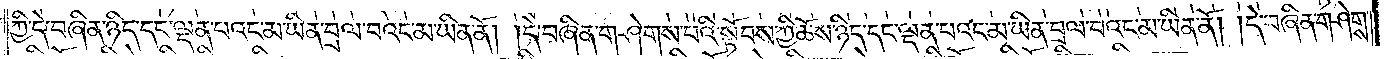ཀྱི་དེ་བཞིན་ཉིད་དང་ལྡན་པའང་མ་ཡིན་བྲལ་བའང་མ་ཡིན་ནོ། །དེ་བཞིན་གཤེགས་པའི་སྟོབས་ཀྱི་ཆོས་ཉིད་དང་ལྡན་པའང་མ་ཡིན་བྲལ་བའང་མ་ཡིན་ནོ། །དེ་བཞིན་གཤེགས་
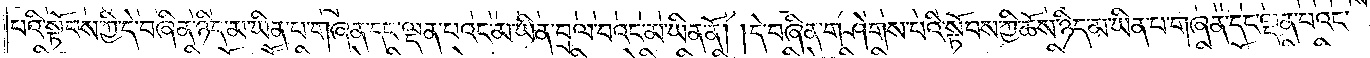པའི་སྟོབས་ཀྱི་དེ་བཞིན་ཉིད་མ་ཡིན་པ་གཞན་དང་ལྡན་པའང་མ་ཡིན་བྲལ་བའང་མ་ཡིན་ནོ། །དེ་བཞིན་གཤེགས་པའི་སྟོབས་ཀྱི་ཆོས་ཉིད་མ་ཡིན་པ་གཞན་དང་ལྡན་པའང་
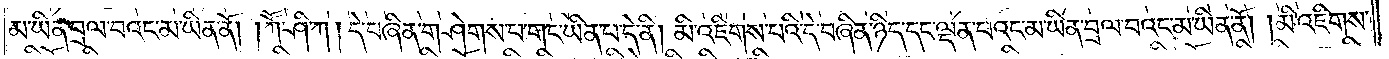མ་ཡིན་བྲལ་བའང་མ་ཡིན་ནོ། །ཀཽ་ཤི་ཀ། དེ་བཞིན་གཤེགས་པ་གང་ཡིན་པ་དེ་ནི། མི་འཇིགས་པའི་དེ་བཞིན་ཉིད་དང་ལྡན་པའང་མ་ཡིན་བྲལ་བའང་མ་ཡིན་ནོ། །མི་འཇིགས་
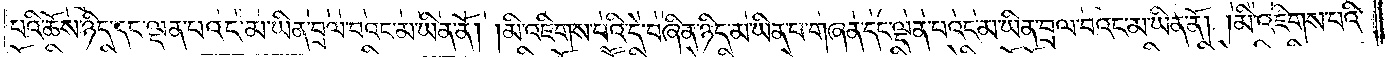པའི་ཆོས་ཉིད་དང་ལྡན་པའང་མ་ཡིན་བྲལ་བའང་མ་ཡིན་ནོ། །མི་འཇིགས་པའི་དེ་བཞིན་ཉིད་མ་ཡིན་པ་གཞན་དང་ལྡན་པའང་མ་ཡིན་བྲལ་བའང་མ་ཡིན་ནོ། །མི་འཇིགས་པའི་
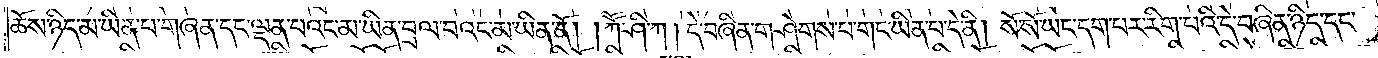ཆོས་ཉིད་མ་ཡིན་པ་གཞན་དང་ལྡན་པའང་མ་ཡིན་བྲལ་བའང་མ་ཡིན་ནོ། །ཀཽ་ཤི་ཀ། དེ་བཞིན་གཤེགས་པ་གང་ཡིན་པ་དེ་ནི། སོ་སོ་ཡང་དག་པར་རིག་པའི་དེ་བཞིན་ཉིད་དང་
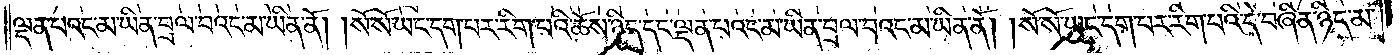ལྡན་པའང་མ་ཡིན་བྲལ་བའང་མ་ཡིན་ནོ། །སོ་སོ་ཡང་དག་པར་རིག་པའི་ཆོས་ཉིད་དང་ལྡན་པའང་མ་ཡིན་བྲལ་བའང་མ་ཡིན་ནོ། །སོ་སོ་ཡང་དག་པར་རིག་པའི་དེ་བཞིན་ཉིད་མ་
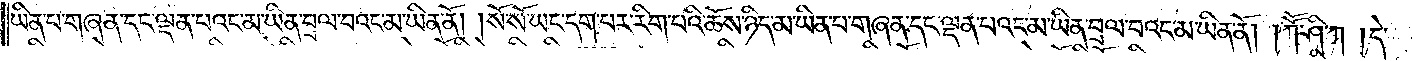ཡིན་པ་གཞན་དང་ལྡན་པའང་མ་ཡིན་བྲལ་བའང་མ་ཡིན་ནོ། །སོ་སོ་ཡང་དག་པར་རིག་པའི་ཆོས་ཉིད་མ་ཡིན་པ་གཞན་དང་ལྡན་པའང་མ་ཡིན་བྲལ་བའང་མ་ཡིན་ནོ། །ཀཽ་ཤི་ཀ །དེ་
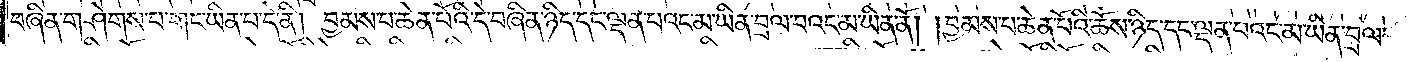བཞིན་གཤེགས་པ་གང་ཡིན་པ་དེ་ནི། བྱམས་པ་ཆེན་པོའི་དེ་བཞིན་ཉིད་དང་ལྡན་པའང་མ་ཡིན་བྲལ་བའང་མ་ཡིན་ནོ། །བྱམས་པ་ཆེན་པོའི་ཆོས་ཉིད་དང་ལྡན་པའང་མ་ཡིན་བྲལ་
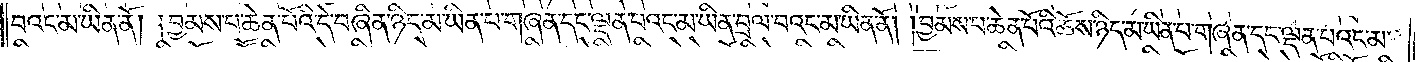བའང་མ་ཡིན་ནོ། །བྱམས་པ་ཆེན་པོ་འདི་བཞིན་ཉིད་མ་ཡིན་པ་གཞན་དང་ལྡན་པའང་མ་ཡིན་བྲལ་བའང་མ་ཡིན་ནོ། །བྱམས་པ་ཆེན་པོའི་ཆོས་ཉིད་མ་ཡིན་པ་གཞན་དང་ལྡན་པའང་མ་
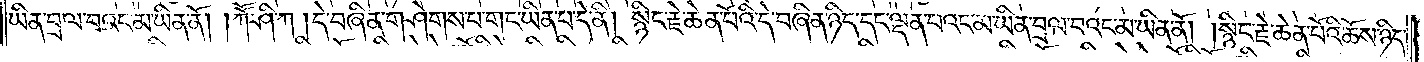ཡིན་བྲལ་བའང་མ་ཡིན་ནོ། །ཀཽ་ཤི་ཀ །དེ་བཞིན་གཤེགས་པ་གང་ཡིན་པ་དེ་ནི། སྙིང་རྗེ་ཆེན་པོའི་དེ་བཞིན་ཉིད་དང་ལྡན་པའང་མ་ཡིན་བྲལ་བའང་མ་ཡིན་ནོ། །སྙིང་རྗེ་ཆེན་པོའི་ཆོས་ཉིད་
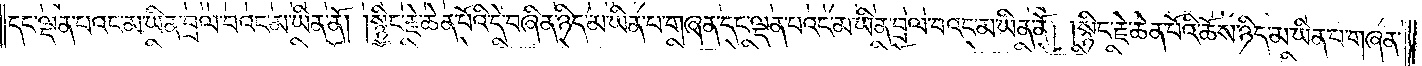དང་ལྡན་པའང་མ་ཡིན་བྲལ་བའང་མ་ཡིན་ནོ། །སྙིང་རྗེ་ཆེན་པོའི་དེ་བཞིན་ཉིད་མ་ཡིན་པ་གཞན་དང་ལྡན་པའང་མ་ཡིན་བྲལ་བའང་མ་ཡིན་ནོ། །སྙིང་རྗེ་ཆེན་པོའི་ཆོས་ཉིད་མ་ཡིན་པ་གཞན་
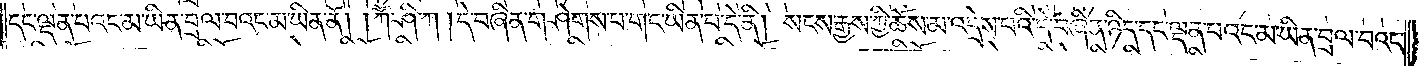དང་ལྡན་པའང་མ་ཡིན་བྲལ་བའང་མ་ཡིན་ནོ། །ཀཽ་ཤི་ཀ །དེ་བཞིན་གཤེགས་པ་གང་ཡིན་པ་དེ་ནི། སངས་རྒྱས་ཀྱི་ཆོས་མ་འདྲེས་པའི་དེ་བཞིན་ཉིད་དང་ལྡན་པའང་མ་ཡིན་བྲལ་བའང་
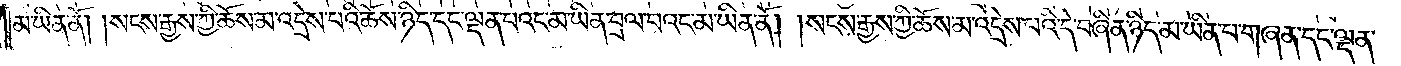མ་ཡིན་ནོ། །སངས་རྒྱས་ཀྱི་ཆོས་མ་འདྲེས་པའི་ཆོས་ཉིད་དང་ལྡན་པའང་མ་ཡིན་བྲལ་བའང་མ་ཡིན་ནོ། །སངས་རྒྱས་ཀྱི་ཆོས་མ་འདྲེས་པའི་དེ་བཞིན་ཉིད་མ་ཡིན་པ་གཞན་དང་ལྡན་
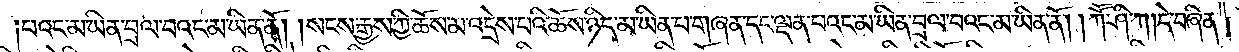པའང་མ་ཡིན་བྲལ་བའང་མ་ཡིན་ནོ། །སངས་རྒྱས་ཀྱི་ཆོས་མ་འདྲེས་པའི་ཆོས་ཉིད་མ་ཡིན་པ་གཞན་དང་ལྡན་པའང་མ་ཡིན་བྲལ་བའང་མ་ཡིན་ནོ། །ཀཽ་ཤི་ཀ །དེ་བཞིན་
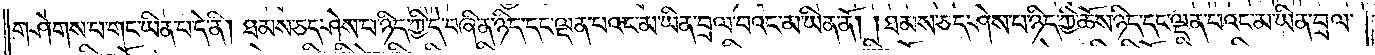གཤེགས་པ་གང་ཡིན་པ་དེ་ནི། ཐམས་ཅད་ཤེས་པ་ཉིད་ཀྱི་དེ་བཞིན་ཉིད་དང་ལྡན་པའང་མ་ཡིན་བྲལ་བའང་མ་ཡིན་ནོ། །ཐམས་ཅད་ཤེས་པ་ཉིད་ཀྱི་ཆོས་ཉིད་དང་ལྡན་པའང་མ་ཡིན་བྲལ་
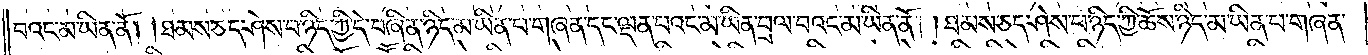བའང་མ་ཡིན་ནོ། །ཐམས་ཅད་ཤེས་པ་ཉིད་ཀྱི་དེ་བཞིན་ཉིད་མ་ཡིན་པ་གཞན་དང་ལྡན་པའང་མ་ཡིན་བྲལ་བའང་མ་ཡིན་ནོ། །ཐམས་ཅད་ཤེས་པ་ཉིད་ཀྱི་ཆོས་ཉིད་མ་ཡིན་པ་གཞན་
